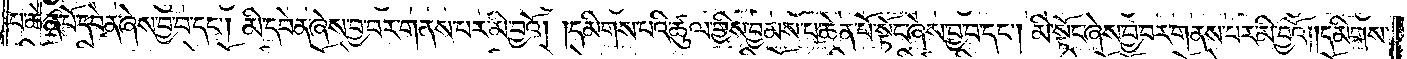པ་ཆེན་པོ་དབེན་ཞེས་བྱ་བ་དང༌། མི་དབེན་ཞེས་བྱ་བར་གནས་པར་མི་བྱའོ། །དམིགས་པའི་ཚུལ་གྱིས་བྱམས་པ་ཆེན་པོ་སྟོང་ཞེས་བྱ་བ་དང༌། མི་སྟོང་ཞེས་བྱ་བར་གནས་པར་མི་བྱའོ། །དམིགས་
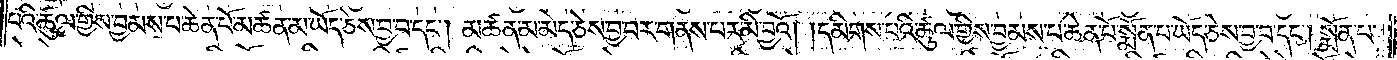པའི་ཚུལ་གྱིས་བྱམས་པ་ཆེན་པོ་མཚན་མ་ཡོད་ཅེས་བྱ་བ་དང༌། མཚན་མ་མེད་ཅེས་བྱ་བར་གནས་པར་མི་བྱའོ། །དམིགས་པའི་ཚུལ་གྱིས་བྱམས་པ་ཆེན་པོ་སྨོན་པ་ཡོད་ཅེས་བྱ་བ་དང༌། སྨོན་པ་
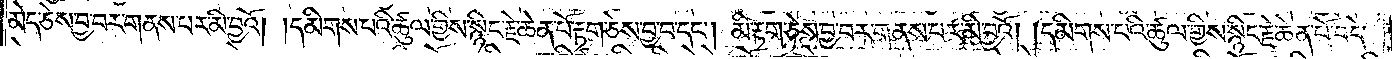མེད་ཅེས་བྱ་བར་གནས་པར་མི་བྱའོ། །དམིགས་པའི་ཚུལ་གྱིས་སྙིང་རྗེ་ཆེན་པོ་རྟག་ཅེས་བྱ་བ་དང༌། མི་རྟག་ཅེས་བྱ་བར་གནས་པར་མི་བྱའོ། །དམིགས་པའི་ཚུལ་གྱིས་སྙིང་རྗེ་ཆེན་པོ་བདེ་
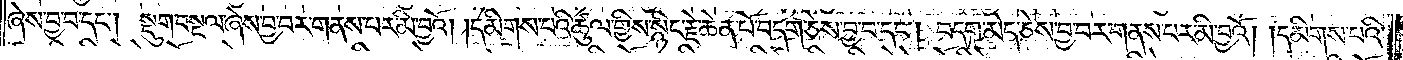ཞེས་བྱ་བ་དང༌། སྡུག་བསྔལ་ཞེས་བྱ་བར་གནས་པར་མི་བྱའོ། །དམིགས་པའི་ཚུལ་གྱིས་སྙིང་རྗེ་ཆེན་པོ་བདག་ཅེས་བྱ་བ་དང༌། བདག་མེད་ཅེས་བྱ་བར་གནས་པར་མི་བྱའོ། །དམིགས་པའི་
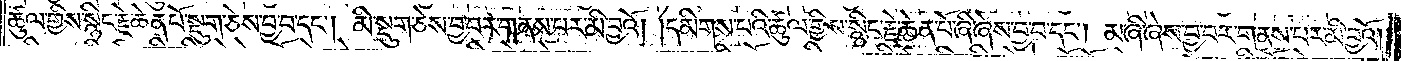ཚུལ་གྱིས་སྙིང་རྗེ་ཆེན་པོ་སྡུག་ཅེས་བྱ་བ་དང༌། མི་སྡུག་ཅེས་བྱ་བར་གནས་པར་མི་བྱའོ། །དམིགས་པའི་ཚུལ་གྱིས་སྙིང་རྗེ་ཆེན་པོ་ཞི་ཞེས་བྱ་བ་དང༌། མ་ཞི་ཞེས་བྱ་བར་གནས་པར་མི་བྱའོ། །
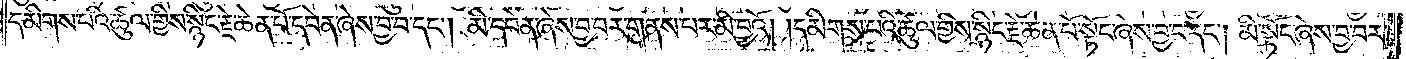དམིགས་པའི་ཚུལ་གྱིས་སྙིང་རྗེ་ཆེན་པོ་དབེན་ཞེས་བྱ་བ་དང༌། མི་དབེན་ཞེས་བྱ་བར་གནས་པར་མི་བྱའོ། །དམིགས་པའི་ཚུལ་གྱིས་སྙིང་རྗེ་ཆེན་པོ་སྟོང་ཞེས་བྱ་བ་དང༌། མི་སྟོང་ཞེས་བྱ་བར་
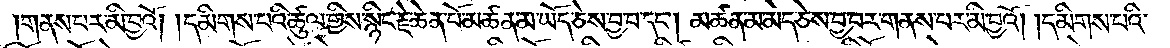གནས་པར་མི་བྱའོ། །དམིགས་པའི་ཚུལ་གྱིས་སྙིང་རྗེ་ཆེན་པོ་མཚན་མ་ཡོད་ཅེས་བྱ་བ་དང༌། མཚན་མ་མེད་ཅེས་བྱ་བར་གནས་པར་མི་བྱའོ། །དམིགས་པའི་
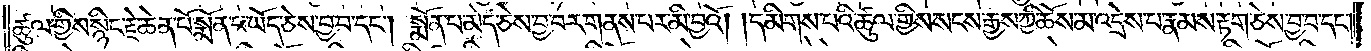ཚུལ་གྱིས་སྙིང་རྗེ་ཆེན་པོ་སྨོན་པ་ཡོད་ཅེས་བྱ་བ་དང༌། སྨོན་པ་མེད་ཅེས་བྱ་བར་གནས་པར་མི་བྱའོ། །དམིགས་པའི་ཚུལ་གྱིས་སངས་རྒྱས་ཀྱི་ཆོས་མ་འདྲེས་པ་རྣམས་རྟག་ཅེས་བྱ་བ་དང༌།
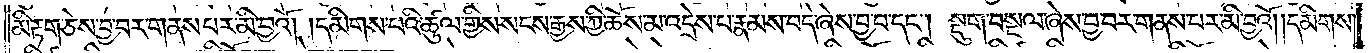མི་རྟག་ཅེས་བྱ་བར་གནས་པར་མི་བྱའོ། །དམིགས་པའི་ཚུལ་གྱིས་སངས་རྒྱས་ཀྱི་ཆོས་མ་འདྲེས་པ་རྣམས་བདེ་ཞེས་བྱ་བ་དང༌། སྡུག་བསྔལ་ཞེས་བྱ་བར་གནས་པར་མི་བྱའོ། །དམིགས་
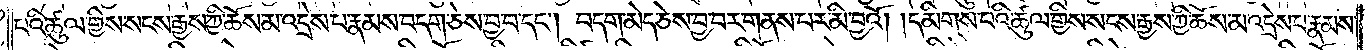པའི་ཚུལ་གྱིས་སངས་རྒྱས་ཀྱི་ཆོས་མ་འདྲེས་པ་རྣམས་བདག་ཅེས་བྱ་བ་དང༌། བདག་མེད་ཅེས་བྱ་བར་གནས་པར་མི་བྱའོ། །དམིགས་པའི་ཚུལ་གྱིས་སངས་རྒྱས་ཀྱི་ཆོས་མ་འདྲེས་པ་རྣམས་
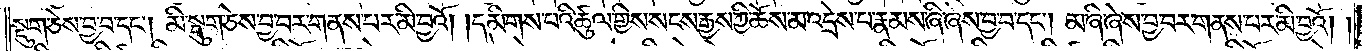སྡུག་ཅེས་བྱ་བ་དང༌། མི་སྡུག་ཅེས་བྱ་བར་གནས་པར་མི་བྱའོ། །དམིགས་པའི་ཚུལ་གྱིས་སངས་རྒྱས་ཀྱི་ཆོས་མ་འདྲེས་པ་རྣམས་ཞི་ཞེས་བྱ་བ་དང༌། མ་ཞི་ཞེས་བྱ་བར་གནས་པར་མི་བྱའོ། །
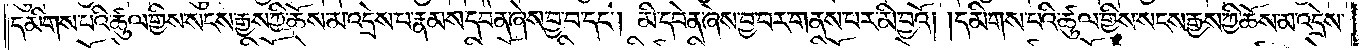དམིགས་པའི་ཚུལ་གྱིས་སངས་རྒྱས་ཀྱི་ཆོས་མ་འདྲེས་པ་རྣམས་དེ་དབེན་ཞེས་བྱ་བ་དང༌། མི་དབེན་ཞེས་བྱ་བར་གནས་པར་མི་བྱའོ། །དམིགས་པའི་ཚུལ་གྱིས་སངས་རྒྱས་ཀྱི་ཆོས་མ་འདྲེས་
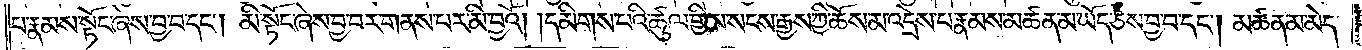པ་རྣམས་སྟོང་ཞེས་བྱ་བ་དང༌། མི་སྟོང་ཞེས་བྱ་བར་གནས་པར་མི་བྱའོ། །དམིགས་པའི་ཚུལ་གྱིས་སངས་རྒྱས་ཀྱི་ཆོས་མ་འདྲེས་པ་རྣམས་མཚན་མ་ཡོད་ཅེས་བྱ་བ་དང༌། མཚན་མ་མེད་
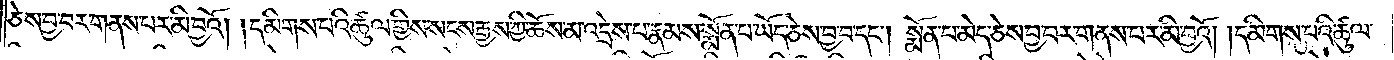ཅེས་བྱ་བར་གནས་པར་མི་བྱའོ། །དམིགས་པའི་ཚུལ་གྱིས་སངས་རྒྱས་ཀྱི་ཆོས་མ་འདྲེས་པ་རྣམས་སྨོན་པ་ཡོད་ཅེས་བྱ་བ་དང༌། སྨོན་པ་མེད་ཅེས་བྱ་བར་གནས་པར་མི་བྱའོ། །དམིགས་པའི་ཚུལ་
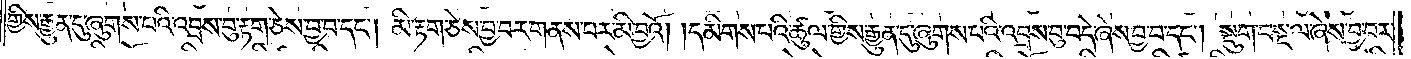གྱིས་རྒྱུན་དུ་ཞུགས་པའི་འབྲས་བུ་རྟག་ཅེས་བྱ་བ་དང༌། མི་རྟག་ཅེས་བྱ་བར་གནས་པར་མི་བྱའོ། །དམིགས་པའི་ཚུལ་གྱིས་རྒྱུན་དུ་ཞུགས་པའི་འབྲས་བུ་བདེ་ཞེས་བྱ་བ་དང༌། སྡུག་བསྔལ་ཞེས་བྱ་བར་
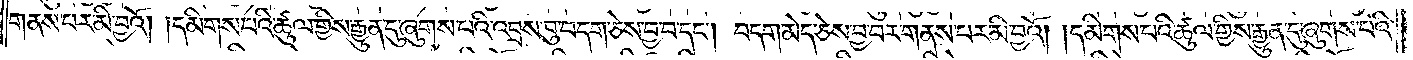གནས་པར་མི་བྱའོ། །དམིགས་པའི་ཚུལ་གྱིས་རྒྱུན་དུ་ཞུགས་པའི་འབྲས་བུ་བདག་ཅེས་བྱ་བ་དང༌། བདག་མེད་ཅེས་བྱ་བར་གནས་པར་མི་བྱའོ། །དམིགས་པའི་ཚུལ་གྱིས་རྒྱུན་དུ་ཞུགས་པའི་
